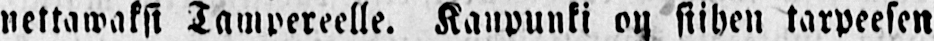nettawakst Tampereelle. Kaupunki on siihen tarpeesen
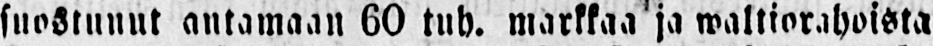suostunut antamaan 60 tuh. markkaa ja waltiorahoista
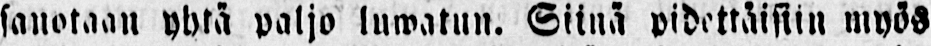sanotaan yhtä paljo luwatun. Siinä widettäisiin myös
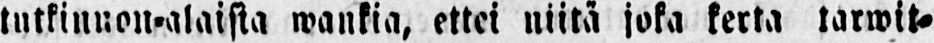tutkinnon-alaista wankia, ettei niitä joka kerta tanvit-
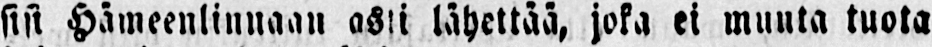sist Hämeenlinnaan asli lähettää, joka ei munta tuota
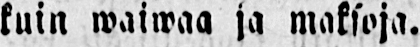kuin waiwaa ja maksoja.
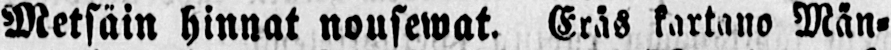Metsäin hinnat nousewat. Eräs kartano Män-
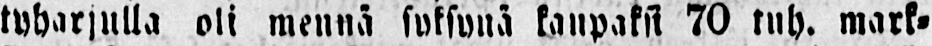tyharjulla oli mennä syksynä kanpaksi 70 tuh. mar-
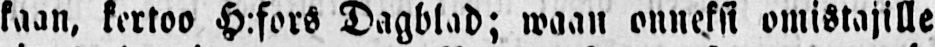kaan, kertoo H:forS Dagblad; waan onneksi omistajille
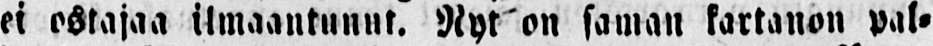ei ostajaa ilmaantunut. Nyt on saman kartanon pal-
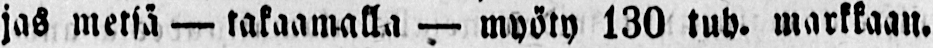jas metsä — takaa,malla — myöty 130 tuh. markkaan.
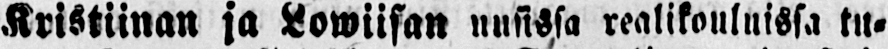Kristiinan ja Lowiifan nusissa realikouluissa tu-
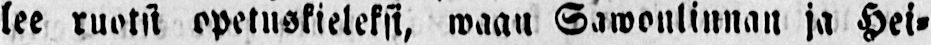lee ruotsi opetuskieleksi, waan Sawoulinnan ja Hei-
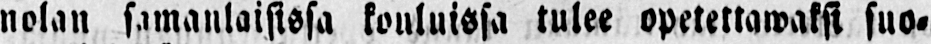nolan samanlaisissa kouluissa tulee opetettawakst suo-
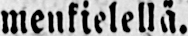menkielellä.
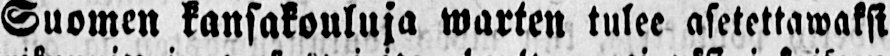Suomen kansakouluja warten tulee asetettawakst
